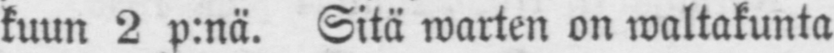kuun 2 p:nä. Sitä warten on waltakunta
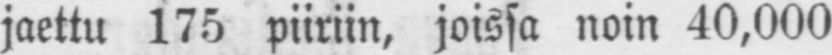jaettu 175 piiriin, joissa noin 40,000
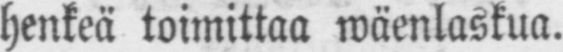henkeä toimittaa wäenlaskua.
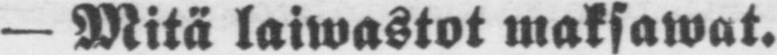— Mitä laiwastot maksawat.
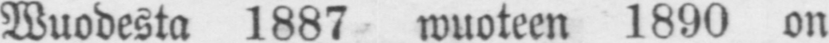Wuodesta 1887 wuoteen 1890 on
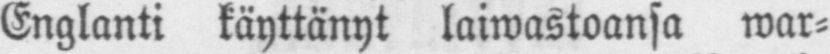Englanti käyttänyt laiwastoansa war-
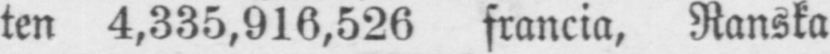ten 4,335,916,526 francia, Ranska
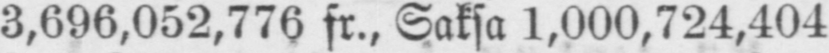3,696,052,776 st., Saksa 1,000,724,404
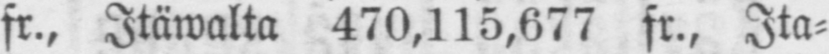st., Itäwältä 470,115,677 fr., Ita-
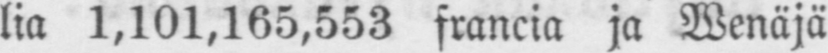lia 1,101,165,553 francia ja Wenäjä
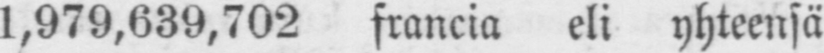1,979,639,702 francia eli yhteensä
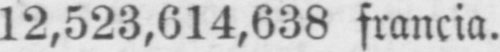12,523,614,638 francia.
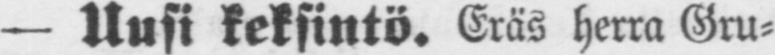— Uusi keksintö. Eräs herra Gru-
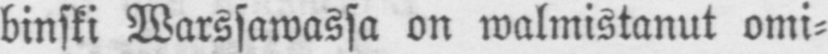binski Warssawassa on walmistanut omi-
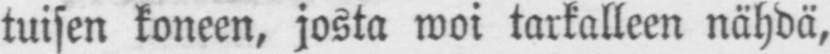tuisen koneen, josta woi tarkalleen nähdä,
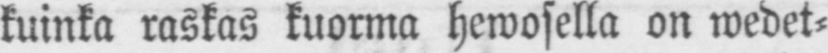kuinka raskas kuorma hewosella on wedet-
